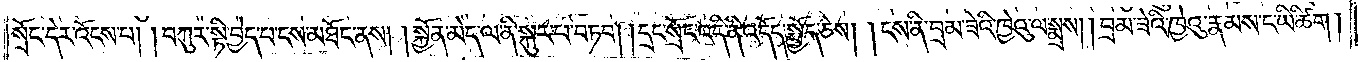སྲོང་དེར་འོངས་པ། །བཀུར་སྟི་བྱེད་པ་ངས་མཐོང་ནས། །སྐྱོན་མེད་ལ་ནི་སྐུར་བ་བཏབ། །དྲང་སྲོང་འདི་ནི་འདོད་སྤྱོད་ཅེས། །ངས་ནི་བྲམ་ཟེའི་ཁྱེའུ་ལ་སྨྲས། །བྲམ་ཟེའི་ཁྱེའུ་རྣམས་ང་ཡི་ཚིག །
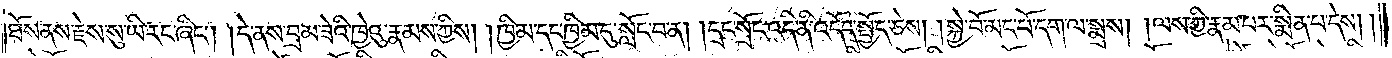ཐོས་ནས་རྗེས་སུ་ཡི་རང་ཞིང༌། །དེ་ནས་བྲམ་ཟེའི་ཁྱེའུ་རྣམས་ཀྱིས། །ཁྱིམ་དང་ཁྱིམ་དུ་སློང་བ་ན། །དྲང་སྲོང་འདི་ནི་འདོད་སྤྱོད་ཅེས། །སྐྱེ་བོ་མང་པོ་དག་ལ་སྨྲས། །ལས་ཀྱི་རྣམ་པར་སྨིན་པ་དེས། །
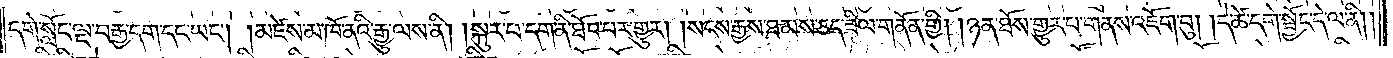དགེ་སློང་ལྔ་བརྒྱ་དག་དང་ཡང༌། །མཛེས་མ་ཁོ་ནའི་རྒྱུ་ལས་ནི། །སྐུར་པ་དག་ནི་ཐོབ་པར་གྱུར། །སངས་རྒྱས་ཐམས་ཅད་ཟིལ་གནོན་གྱི། །ཉན་ཐོས་གྱུར་བ་གནས་འཇོག་བུ། །དེ་ཚེ་དགེ་སྦྱོང་དེ་ལ་ནི། །
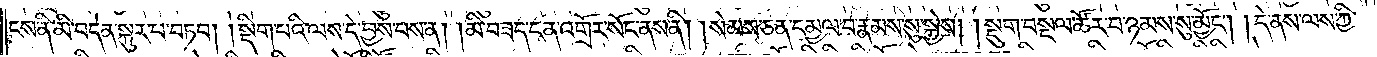ངས་ནི་མི་བདེན་སྐུར་པ་བཏབ། །སྡིག་པའི་ལས་དེ་བྱས་པས་ན། །མི་བཟད་ངན་འགྲོར་སོང་ནས་ནི། །སེམས་ཅན་དམྱལ་བ་རྣམས་སུ་སྐྱེས། །སྡུག་བསྔལ་ཚོར་བ་ཉམས་སུ་མྱོང༌། །དེ་ནས་ལས་ཀྱི་
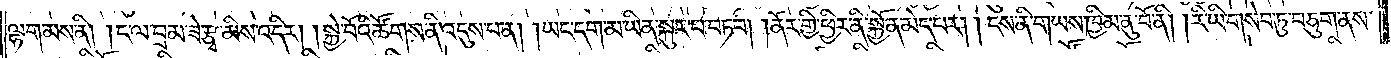ལྷག་མས་ནི། །ང་ལ་བྲམ་ཟེ་རྩྭ་མིས་འདིར། །སྐྱེ་བོའི་ཚོགས་ནི་འདུས་པ་ན། །ཡང་དག་མ་ཡིན་སྐུར་པ་བཏབ། །ནོར་གྱི་ཕྱིར་ནི་སྐྱོན་མེད་པར། །ངས་ནི་གཡས་ཁྱིམ་ནུ་བོ་ནི། །རི་ཡི་གསེབ་ཏུ་བཅུག་ནས་
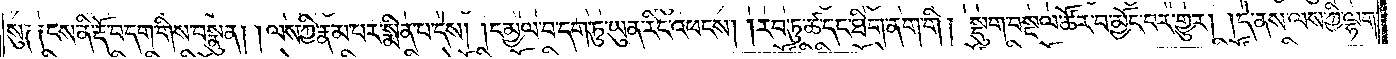སུ༑ ༑ངས་ནི་རྡོ་བ་དག་གིས་བསྣུན། །ལས་ཀྱི་རྣམ་པར་སྨིན་པ་དེས། །དམྱལ་བ་དག་ཏུ་ཡུན་རིང་འཕངས། །རབ་ཏུ་ཚ་དང་ཐིག་ནག་གི། །སྡུག་བསྔལ་ཚོར་བ་མྱོང་བར་གྱུར། །དེ་ནས་ལས་ཀྱི་ལྷག་
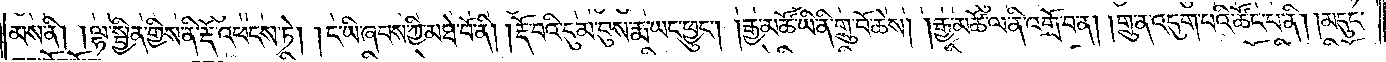མས་ནི། །ལྷ་སྦྱིན་གྱིས་ནི་རྡོ་འཕངས་ཏེ། །ང་ཡི་ཞབས་ཀྱི་མཐེ་བོ་ནི། །རྡོ་བའི་དུམ་བུས་རྨ་ཡང་ཕྱུང༌། །རྒྱ་མཚོ་ཡི་ནི་གྲུ་བོ་ཆེས། །རྒྱ་མཚོ་ལ་ནི་འགྲོ་བ་ན། །གྲུ་ན་འདུག་པའི་ཚོང་པ་ནི། །མདུང་
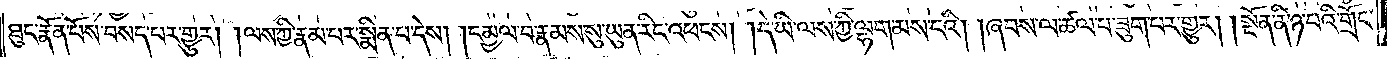ཐུང་རྣོན་པོས་བསད་པར་གྱུར། །ལས་ཀྱི་རྣམ་པར་སྨིན་པ་དེས། །དམྱལ་བ་རྣམས་སུ་ཡུན་རིང་འཕངས། །དེ་ཡི་ལས་ཀྱི་ལྷག་མས་ངའི། །ཞབས་ལ་ཚལ་པ་ཟུག་པར་གྱུར། །སྔོན་ནི་ཉ་པའི་གྲོང་
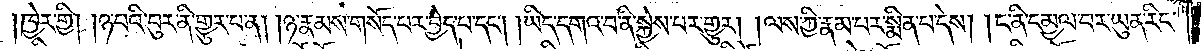ཁྱེར་གྱི། །ཉ་པའི་བུར་ནི་གྱུར་པ་ན། །ཉ་རྣམས་གསོད་པར་བྱེད་པ་དང༌། །ཡིད་དགའ་བ་ནི་སྐྱེས་པར་གྱུར། །ལས་ཀྱི་རྣམ་པར་སྨིན་པ་དེས། །ང་ནི་དམྱལ་བར་ཡུན་རིང་
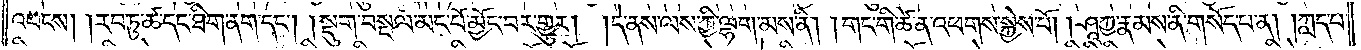འཕངས། །རབ་ཏུ་ཚ་དང་ཐིག་ནག་དང༌། །སྡུག་བསྔལ་མང་པོ་མྱོང་བར་གྱུར། །དེ་ནས་ལས་ཀྱི་ལྷག་མས་ནི། །གང་གི་ཚེ་ན་འཕགས་སྐྱེས་བོ། །ཤཱཀྱ་རྣམས་ནི་གསོད་པ་ན། །ཀླད་པ་
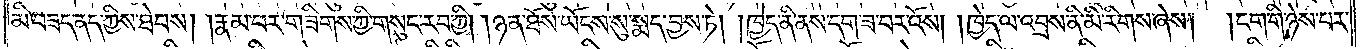མི་བཟད་ནད་ཀྱིས་ཐེབས། །རྣམ་པར་གཟིགས་ཀྱི་གསུང་རབ་ཀྱི། །ཉན་ཐོས་ཡོངས་སུ་སྨད་བྱས་ཏེ། ཁྱེད་ནི་ནས་དག་ཟ་བར་འོས། །ཁྱེད་ལ་འབྲས་ནི་མི་རིགས་ཞེས། །ངག་གི་ཉེས་པར་
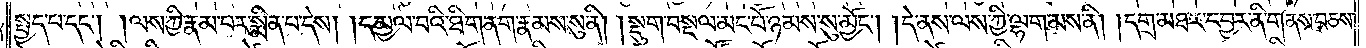སྤྱད་པ་དང༌། །ལས་ཀྱི་རྣམ་པར་སྨིན་པ་དེས། །དམྱལ་བའི་ཐིག་ནག་རྣམས་སུ་ནི། །སྡུག་བསྔལ་མང་པོ་ཉམས་སུ་མྱོང༌། །དེ་ནས་ལས་ཀྱི་ལྷག་མས་ནི། །དགྲ་མཐར་དབྱར་ནི་གནས་བཅས་
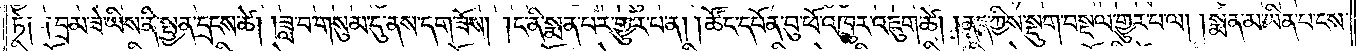ཏེ༑ ༑བྲམ་ཟེ་ཡིས་ནི་སྤྱན་དྲངས་ཚེ། །ཟླ་བ་གསུམ་དུ་ནས་དག་ཟོས། །ང་ནི་སྨན་པར་གྱུར་པ་ན། །ཚོང་དཔོན་བུ་ཕོ་འཁྲུར་འཇུག་ཚེ། །ནད་ཀྱིས་སྡུག་བསྔལ་གྱུར་པ་ལ། །སྨན་མ་ཡིན་པ་ངས་
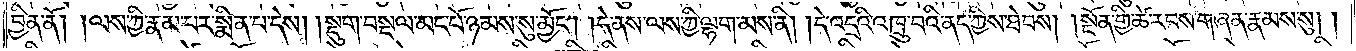བྱིན་ནོ། །ལས་ཀྱི་རྣམ་པར་སྨིན་པ་དེས། །སྡུག་བསྔལ་མང་པོ་ཉམས་སུ་མྱོང༌། །དེ་ནས་ལས་ཀྱི་ལྷག་མས་ནི། །དེ་འདྲའི་འཁྲུ་བའི་ནད་ཀྱིས་ཐེབས། །སྔོན་གྱི་ཚེ་རབས་གཞན་རྣམས་སུ། །
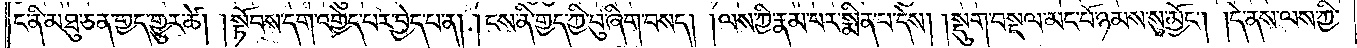ང་ནི་མཐུ་ཅན་གྱད་གྱུར་ཚེ། །སྟོབས་དག་འགྱེད་པར་བྱེད་པ་ན། །ངས་ནི་གྱད་ཀྱི་བུ་ཞིག་བསད། །ལས་ཀྱི་རྣམ་པར་སྨིན་པ་དེས། །སྡུག་བསྔལ་མང་པོ་ཉམས་སུ་མྱོང༌། །དེ་ནས་ལས་ཀྱི་
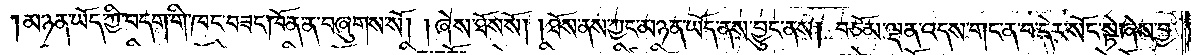མཉན་ཡོད་ཀྱི་བདག་གི་ཁང་བཟང་ཁོ་ན་ན་བཞུགས་སོ། །ཞེས་ཐོས་སོ། །ཐོས་ནས་ཀྱང་མཉན་ཡོད་ནས་བྱུང་ནས། བཅོམ་ལྡན་འདས་གང་ན་བ་དེར་སོང་སྟེ་ཞེས་བྱ་
